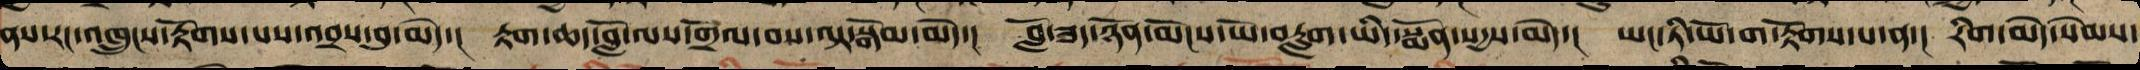ནས་རང་འཁྲུངས་རྟོགས་པས་འབྲས་བུ་མེད་། རྟག་ཆད་བློ་ལས་གྲོལ་བས་ལྟ་སྒོམ་མེད་། བློ་ཟད་ཉོན་མོངས་ཡེ་བརླག་ཡིད་སྨོན་སངས་རྒྱས་མེད་། ཡང་ཏི་ཡོ་ག་རྟོགས་པས་ན་། རིག་མེད་སེམས་
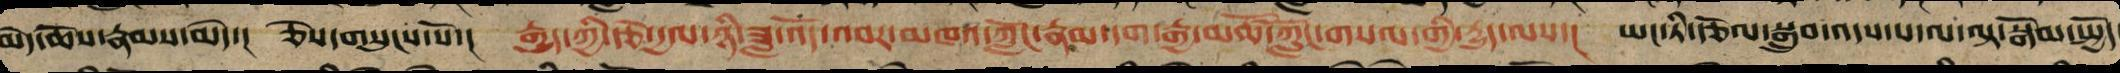མེད་ཆོས་རྣམས་མེད་། ཅེས་གསུངས་སོ་། རྒྱུད་ཀྱི་རྩེ་རྒྱལ་ཉི་ཟླ་འོད་འབར་མཁའ་ཀློང་རྣམ་དག་རྒྱ་མཚོ་ཀློང་གསལ་གྱི་རྒྱུད་ལས་། ཡང་ཏི་རྩོལ་སྒྲུབ་འདས་པ་ལ་ལྟ་སྒོམ་སྤྱོད་
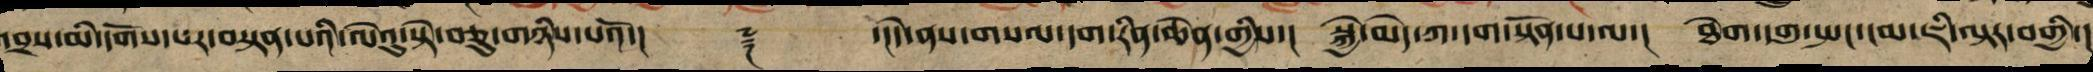འབྲས་མི་དགོས་པར་བསྟན་པའི་ལེའུ་སྟེ་བཅུ་གཉིས་པའོ་།། ༈ ་།།དེ་ནས་གསལ་དག་རིན་ཆེན་གྱིས་། སྐྱེ་མེད་ཀ་དག་སྟོན་པ་ལ་། ཐེག་དགུ་སྤང་ངམ་ཇི་ལྟར་བགྱི་།
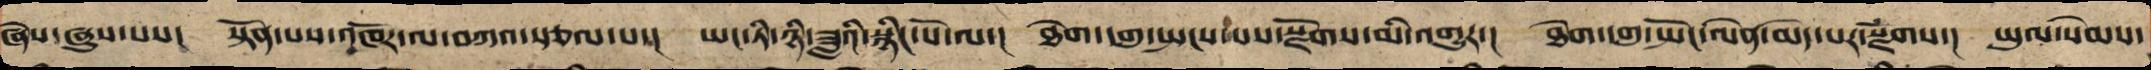ཞེས་ཞུས་པས་། སྟོན་པས་འཁོར་ལ་བཀའ་སྩལ་པ་། ཡང་ཏི་ཉི་ཟླའི་སྙིང་པོ་ལ་། ཐེག་དགུ་སྤངས་པས་སྫོགས་མི་འགྱུར་། ཐེག་དགུ་སྤང་ལེན་མེད་པར་སྫོགས་། ཡུལ་སེམས་
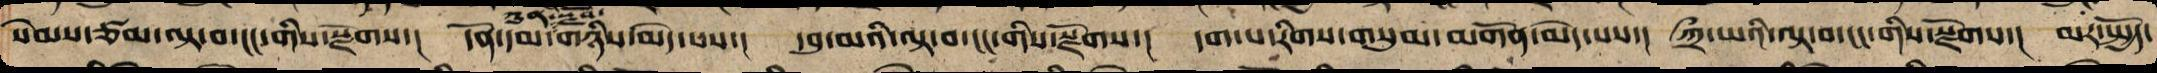སེམས་ཙམ་ལྟ་བ་ངང་གིས་སྫོགས་། དོན་དམ་ཀུན་སྫོབ་གཉིས་མེད་པས་། དབུ་མའི་ལྟ་བ་ངང་གིས་སྫོགས་། དག་པ་རིགས་གསུམ་མགོན་མེད་པས་། ཀྲྀ་ཡའི་ལྟ་བ་ངང་གིས་སྫོགས་། མར་སྤྱོད་
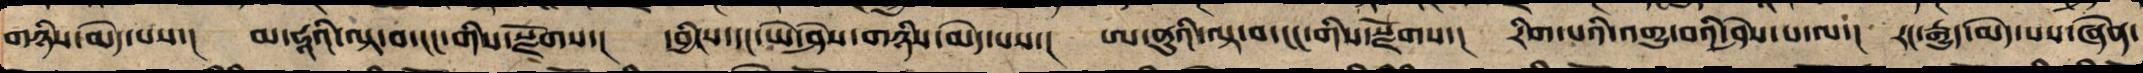གཉིས་མེད་པས་། མ་ཧཱའི་ལྟ་བ་ངང་གིས་སྫོགས་། དབྱིངས་དང་ཡེ་ཤེས་གཉིས་མེད་པས་། ཨ་ནུའི་ལྟ་བ་ངང་གིས་སྫོགས་། རིག་པ་འགྱུ་བའི་ཤེས་པ་ལ་། རང་རྒྱུད་མེད་པས་ཞེན་
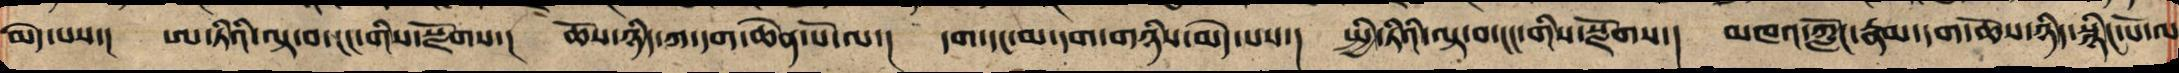མེད་པས་། ཨ་ཏིའི་ལྟ་བ་ངང་གིས་སྫོགས་། ཆོས་ཉིད་ཀ་དག་ཆེན་པོ་ལ་། དག་དང་མ་དག་གཉིས་མེད་པས་། སྤྱི་ཏིའི་ལྟ་བ་ངང་གིས་སྫོགས་། མཁའ་ཀློང་རྣམ་དག་ཆོས་ཉིད་སྙིང་པོ་ལ
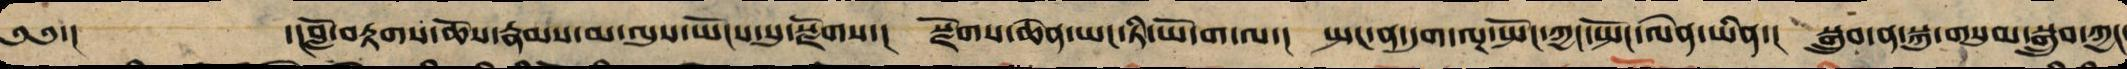༄༅་། ་།བློས་བརྟགས་ཆོས་རྣམས་མ་ལུས་ཡོངས་སུ་སྫོགས་། སྫོགས་ཆེན་ཡང་ཏི་ཡོ་ག་ལ་། སྤང་ན་དུག་ལྔ་སྤང་ཀྱང་སྤང་ལེན་ཡིན་། སྒྲུབ་ན་སྐུ་གསུམ་སྒྲུབ་ཀྱང་
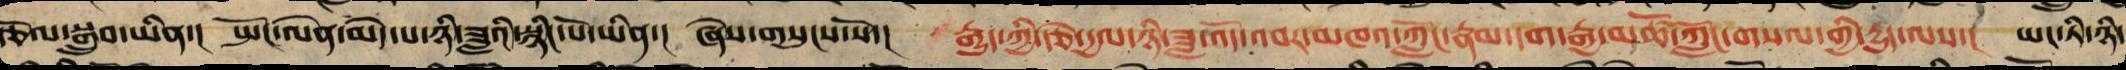རྩོལ་བསྒྲུབ་ཡིན་། སྤང་ལེན་མེད་པ་ཉི་ཟླའི་སྙིང་པོ་ཡིན་། ཞེས་གསུངས་སོ་། རྒྱུད་ཀྱི་རྩེ་རྒྱལ་ཉི་ཟླ་འོད་འབར་མཁའ་ཀློང་རྣམ་དག་རྒྱ་མཚོ་ཀློང་གསལ་གྱི་རྒྱུད་ལས་། ཡང་ཏི་ཉི་
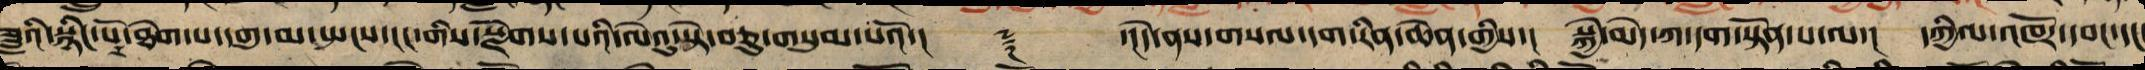ཟླའི་སྙིང་པོར་ཐེག་པ་དགུ་མ་སྤངས་ངང་གིས་སྫོགས་པའི་ལེའུ་སྟེ་བཅུ་གསུམ་པའོ་།། ༈ ་།།དེ་ནས་གསལ་དག་རིན་ཆེན་གྱིས་། སྐྱེ་མེད་ཀ་དག་སྟོན་པ་ལ་། དཀྱིལ་འཁོར་དབང་དང་
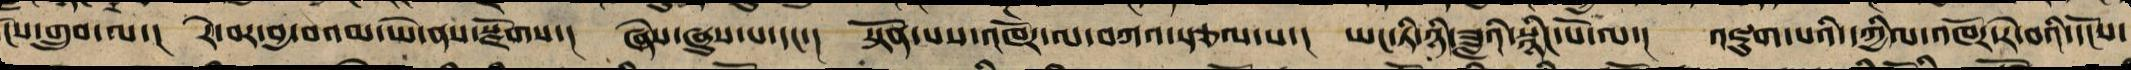དངོས་གྲུབ་ལ་། རེ་བར་བྱ་བའམ་ཡེ་ནས་སྫོགས་། ཞེས་ཞུས་པ་དང་། སྟོན་པས་འཁོར་ལ་བཀའ་སྩལ་པ་། ཡང་ཏི་ཉི་ཟླའི་སྙིང་པོ་ལ་། འཇུག་པའི་དཀྱིལ་འཁོར་རེ་བའི་དངོས་
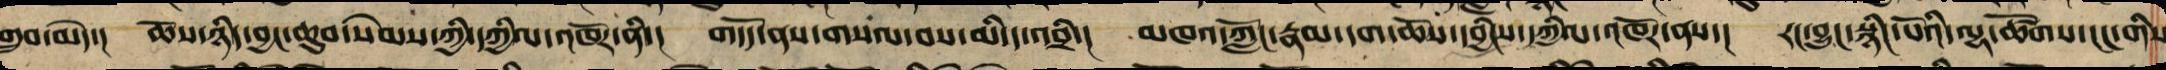གྲུབ་མེད་། ཆོས་ཉིད་བྱང་ཆུབ་སེམས་ཀྱི་དཀྱིལ་འཁོར་ནི་། གདོད་ནས་གསལ་བས་་མི་ད་འབྲི་། མཁའ་ཀློང་རྣམ་དག་ཆོས་དབྱིངས་དཀྱིལ་འཁོར་ན་། རང་བྱུང་སྙིང་པོའི་ལྷ་ཚོགས་ངང་གིས
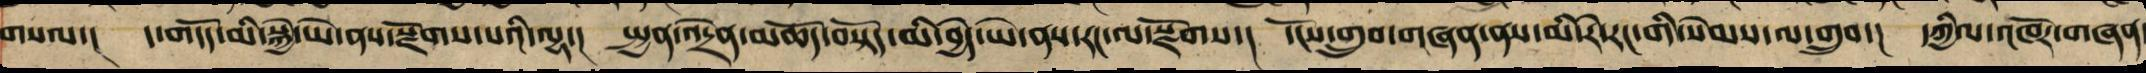གསལ་། ད་གདོད་མི་བསྐྱེད་ཡེ་ནས་སྫོགས་པའི་ལྷ་། སྤྱན་འདྲེན་མཆོད་བསྟོད་མི་བྱེད་ཡེ་ནས་རང་ལ་སྫོགས་། དངོས་གྲུབ་གཞན་ནས་མི་རེ་རང་གི་སེམས་ལ་གྲུབ་། དཀྱིལ་འཁོར་གཞན
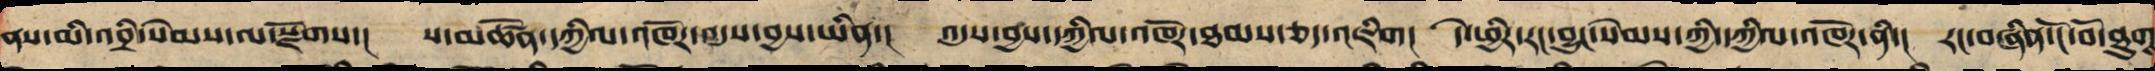ནས་མི་བྲི་སེམས་ལ་སྫོགས་། ས་མཚོན་དཀྱིལ་འཁོར་འདུས་བྱས་ཡིན་། འདུས་བྱས་དཀྱིལ་འཁོར་ཐམས་ཅད་འཇིག། དེ་ཕྱིར་རང་བྱུང་སེམས་ཀྱི་དཀྱིལ་འཁོར་ནི་། རང་བཞིན་ངོ་བོ་ཐུགས
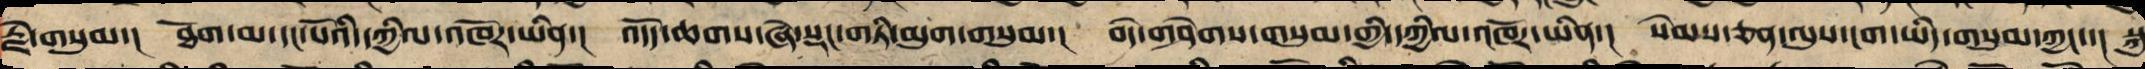རྗེ་གསུམ་། ཐོག་མ་དང་པོའི་དཀྱིལ་འཁོར་ཡིན་། འདོད་ཆགས་ཞེ་སྡང་གཏི་མུག་གསུམ་། བདེ་གཤེགས་གསུམ་གྱི་དཀྱིལ་འཁོར་ཡིན་། སེམས་ཅན་ལུས་ངག་ཡིད་གསུམ་ཀྱང་་། སྐུ
